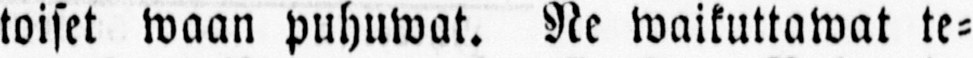toiset waan puhuwat. Ne waikuttawat te-
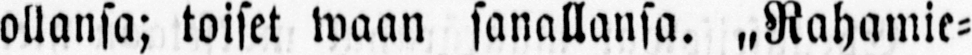ollansa; toiset waan sanallansa. „Rahamie-
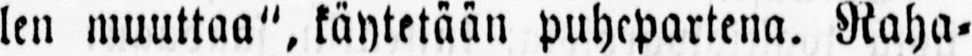len muuttaa", käytetään puhepartena. Raha-
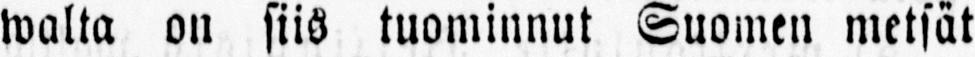walta on siis tuominnut Suomen metsät
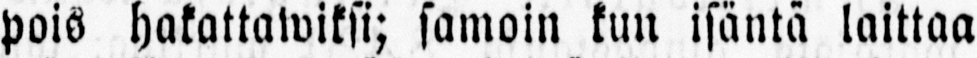pois hakattawiksi; samoin kun isäntä laittaa
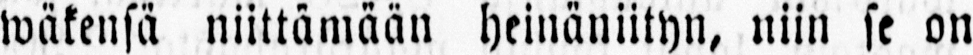wäkensä niittämään heinäniityn, niin se on
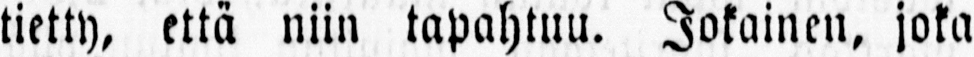tietty, että niin tapahtuu. Jokainen, joka
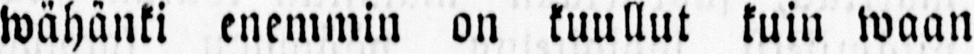wähänki enemmin on kuullut kuin waan
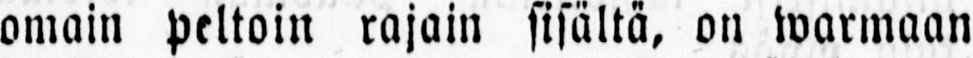omain peltoin rajoin sisältä, on warmaan
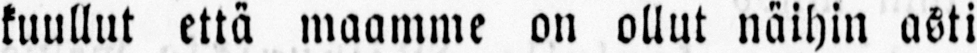kuullut että maamme on ollut näihin asti
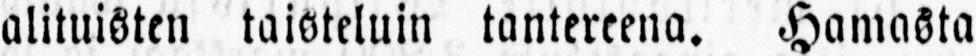alituisten taisteluin tantereena. Hamasta
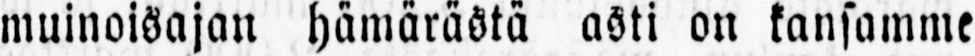muinoisajan hämärästä asti on kansamme
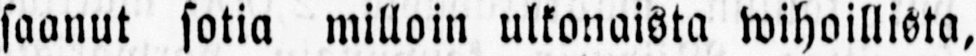saanut sotia milloin ulkonaista wihoillista,
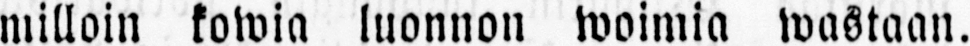milloin kowia luonnon woimia wastaan.
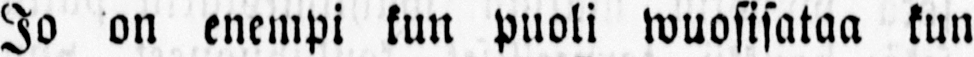Jo on enempi kun puoli wuosisataa kun
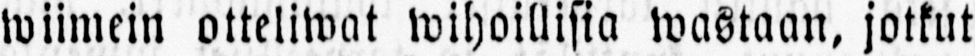wiimein otteliwat wihoillisia wastaan, jotkut
